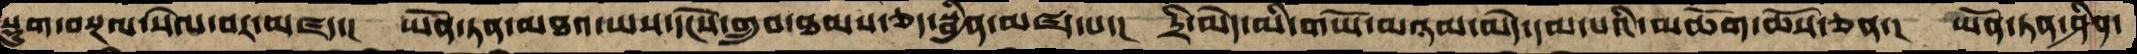སྡུག་བསྔལ་སེལ་བར་མཛད་།  ཡོན་ཏན་མཐའ་ཡས་དངོས་གྲུབ་ཐམས་ཅད་སྦྱིན་མཛད་པ་།  དྲི་མེད་མི་གཡོ་མཉམ་མེད་དམ་པའི་མཆོག་ཆོས་ཅན་།  ཡོན་ཏན་ཤིན་
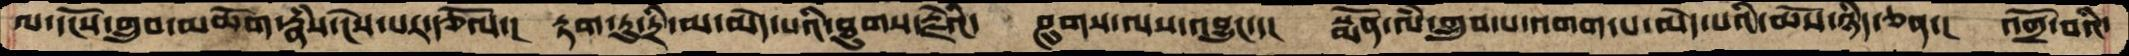ལ་དངོས་གྲུབ་མཆོག་རྣཾས་ངེས་པར་རྩོལ་།  རྟག་ཏུ་དྲི་མ་མེད་པའི་ཐུགས་རྗེའི་  ཤུགས་ལས་འབྱུང་་།  སྨོན་ལཾ་གྲུབ་པ་འགག་པ་མེད་པའི་ཆོས་ཉིད་ཅན་།  འགྲོ་བའི་
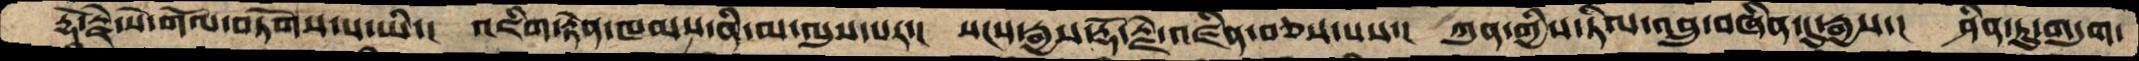རྡོ་རྗེ་སེ་གོལ་བཏོགས་པ་ཡིས་།  འཇིག་རྟེན་ཁམས་ནི་མ་ལུས་པར་།  སངས་རྒྱས་རྡོ་རྗེ་འཛིན་བཅས་པས་།  ཀུན་གྱིས་ཏིལ་འབྲུ་བཞིན་དུ་རྒྱས་།  ཤིན་ཏུ་གདུག་
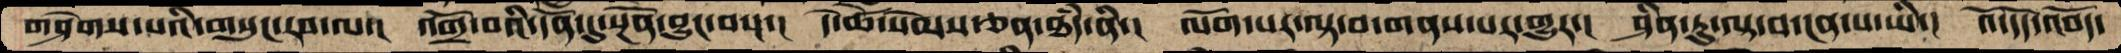གཤེགས་པའི་གསུང་རབ་ལ་།  འགྲོ་བའི་དོན་དུ་སྔོན་བྱུང་བས་།  དེ་ཚེ་སེམས་ཅན་ཐཾད་ནི་།  ལོག་པར་ལྟ་བ་གནས་པར་གྱུར་།  ཤིན་ཏུ་ལྟ་བ་ངན་པ་ཡི་།  འོ་དོད་འབོད་
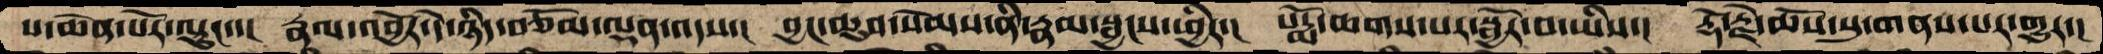པ་ཆེན་པོར་ལྟུང་་།  རྣལ་འབྱོར་དེ་ཉིད་བཅོམ་ལྡན་འདས་།  བྱང་ཆུབ་སེམས་ནི་རྣམ་སྦྱངས་ཕྱིར་།  པདྨོ་ཆགས་པར་སྦྱོར་བ་ཡིས་།  རྡོ་རྗེ་ཆོས་སུ་གནས་པར་གྱུར་།
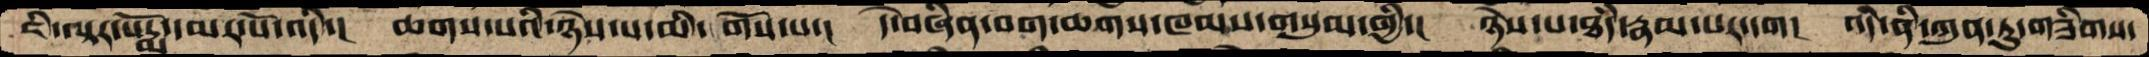ཇི་ལྟར་པདྨོ་དམར་པོ་འདི་།   ཆགས་པའི་ཉེས་པ་མི་ གོས་པ་།  དེ་བཞིན་བག་ཆགས་ཁམས་གསུམ་གྱི་།  ཉེས་པ་ཐཾད་རྣམ་པར་དག།  འདི་ནི་ཀུན་ཏུ་གཟིགས་
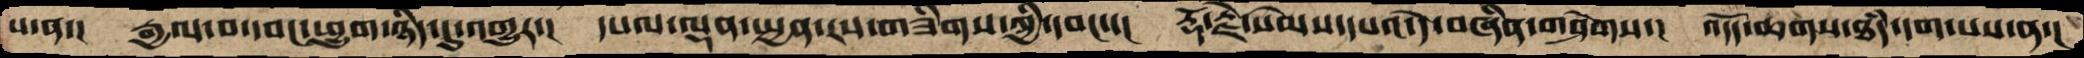པ་ན་།  རྒྱལ་བ་དབང་ཕྱུག་ཉིད་དུ་འགྱུར་།  དཔལ་ལྡན་སྤྱན་རས་གཟིགས་ཀྱི་དབང་་།  རྡོ་རྗེ་སེམས་དཔའ་དེ་བཞིན་གཤེགས་།  འདོད་ཆགས་ཐཾད་དག་པས་ན་།
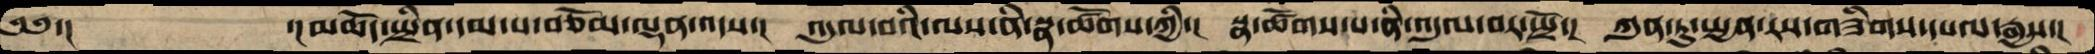༄༅་།         ་།མཆོད་སྤྲིན་དམ་པ་བཅོམ་ལྡན་འདས་།  འདུལ་བའི་ལས་ནི་སྣ་ཚོགས་ཀྱི་།  སྣ་ཚོགས་པ་ནི་འདུལ་བར་སྤྲོ་།  ཀུན་ཏུ་སྤྱན་རས་གཟིགས་དཔལ་རྒྱས་།
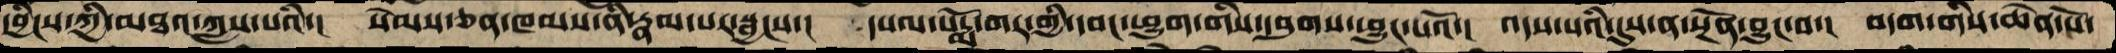དབྱིངས་ཀྱི་མཐའ་ཀླས་པའི་།  སེམས་ཅན་ཁམས་ནི་རྣམ་པར་སྦྱངས་།  དཔལ་པདྨོ་གར་གྱི་དབང་ཕྱུག་གིས་དབུགས་ཕྱུང་པའོ་།  འདས་པའི་དུས་ན་སྔོན་བྱུང་བ་།  བདག་གིས་ཆེན་པོ་
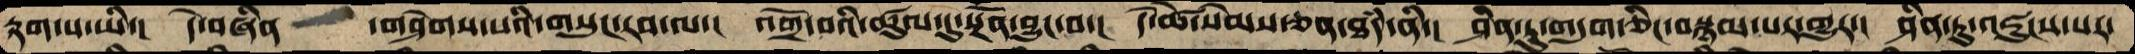རྟག་པ་ཡི་།   དེ་བཞིན    ་གཤེགས་པའི་གསུང་རབ་ལ་།  འགྲོ་བའི་ཚུལ་དུ་སྔོན་བྱུང་བ་།  དེ་ཚེ་སེམས་ཅན་ཐཾད་ནི་།  ཤིན་ཏུ་གདུག་ཅིང་བསྙམ་པར་གྱུར་།  ཤིན་ཏུ་འཇུངས་པར་
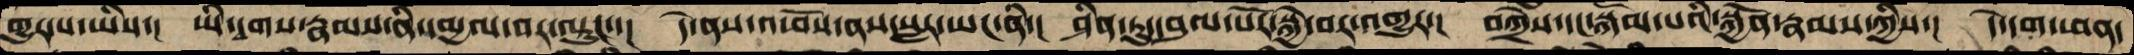གྱུར་པ་ཡིས་།   ཡི་དྭགས་རྣམས་ནི་དམྱལ་བར་ལྟུང་་།  དེ་ནས་འཕོས་ནས་སླར་ཡང་ནི་།  ཤིན་ཏུ་དབུལ་པོར་སྐྱེ་བར་འགྱུར་།  བཀྲེས་དང་སྐོམ་པའི་སྐྱོན་རྣམས་ཀྱིས་།  དེ་དག་ཕན་
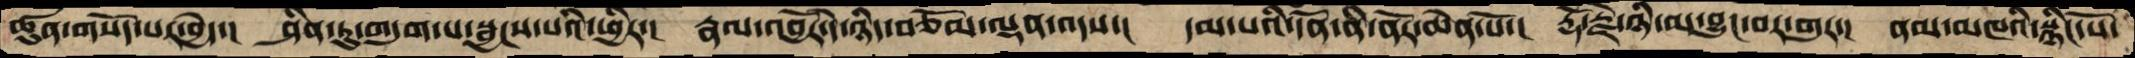ཚུན་གསོད་པར་བྱེད་།  ཤིན་ཏུ་གདུག་པ་སྦྱངས་པའི་ཕྱིར་།  རྣལ་འབྱོར་དེ་ཉིད་བཅོམ་ལྡན་འདས་།  དམ་པའི་དོན་ནི་ནོར་ཆེན་པོ་།  རྡོ་རྗེ་ཉི་མ་བྱུང་བར་གུར་།  ནམ་མཁའི་སྙིང་པོ་
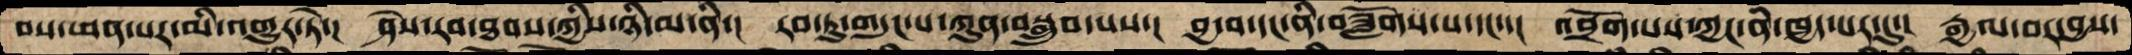བས་ཕན་པར་མི་འགྱུར་ཏེ་།  ཤེས་རབ་ཐབས་ཀྱིས་ཉི་མ་ནི་།  རབ་ཏུ་གདུང་པ་ཀུན་བསྒྲུབ་པས་།  བྱ་བ་དང་ནི་བཟློག་པ་དང་་།  འབྲོག་པས་ཀྱང་ནི་ཁྱད་པར་དུ་།  རྒྱལ་བར་བྱས་
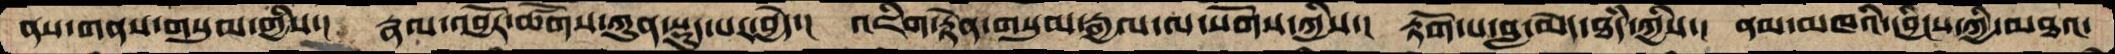ནས་གནས་གསུམ་གྱིས་།  རྣལ་འབྱོར་ཚོགས་ཀུན་སྡུད་པར་བྱེད་།  འཇིག་རྟེན་གསུམ་རྒྱལ་ལ་སོགས་ཀྱིས་།  རྟོག་པ་བླ་མེད་ཐཾད་ཀྱིས་།  ནམ་མཁའི་དབྱིངས་ཀི་མཐའ་
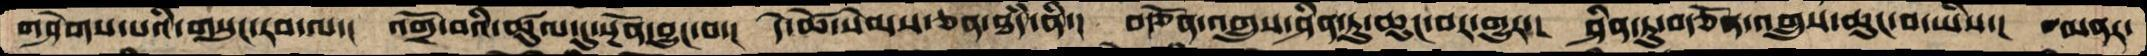གཤེགས་པའི་གསུང་རབ་ལ་།  འགྲོ་བའི་ཚུལ་དུ་སྔོན་བྱུང་བ་།  དེ་ཚེ་སེམས་ཅན་ཐཾད་ནི་།  བརྩོན་འགྲུས་ཤིན་ཏུ་ཆུང་བར་གྱུར་།  ཤིན་ཏུ་བརྩོན་འགྲུས་ཆུང་བ་ཡིས་།  མནར་
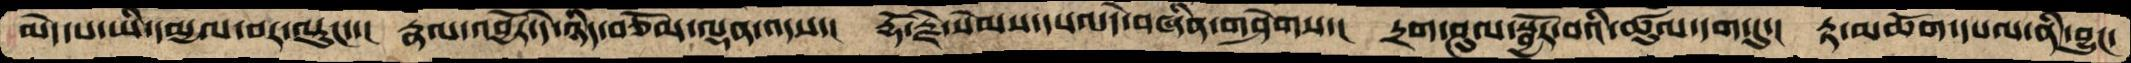མེད་པ་ཡི་དམྱལ་བར་ལྟུང་་།  རྣལ་འབྱོར་དེ་ཉིད་བཅོམ་ལྡན་འདས་།  རྡོ་རྗེ་སེམས་དཔའ་དེ་བཞིན་གཤེགས་།  དྲག་ཤུལ་སྦྱོར་བའི་ཚུལ་དག་དུ་།  རྟ་མཆོག་དཔལ་ནི་བྱུང་
